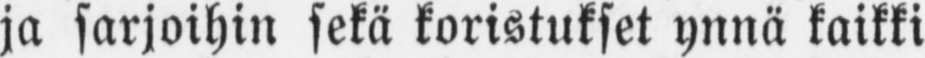ja sarjoihin sekä koristukset ynnä kaikki
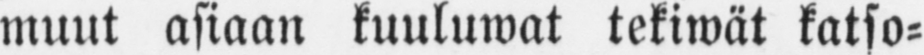muut asiaan kuuluwat tekiwät katso-
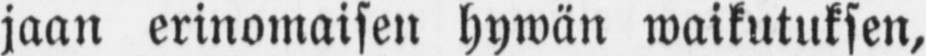jaan erinomaisen hywän waikutuksen,
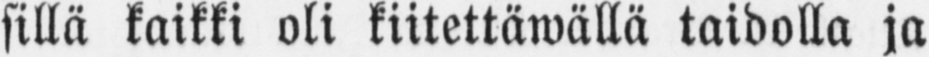sillä kaikki oli kiitettäwällä taidolla ja
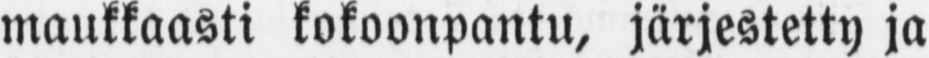maukkaasti kokoonpantu, järjestetty ja
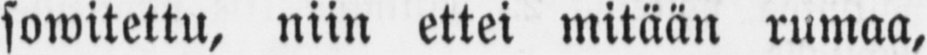sowitettu, niin ettei mitään rumaa,
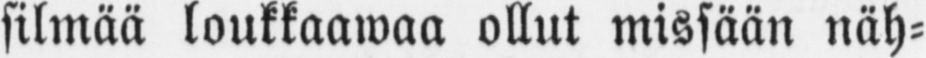silmää loukkaawaa ollut missään näh-
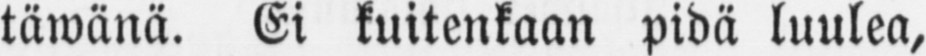täwänä. Ei kuitenkaan pidä luulea,
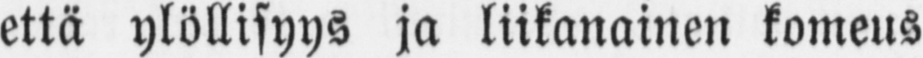että ylöllisyys ja liikanainen komeus
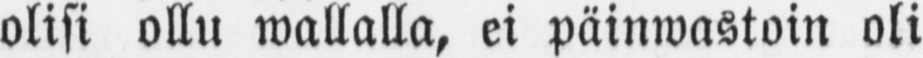olisi ollu wallalla, ei päinwastoin oli
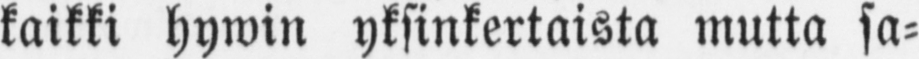kaikki hywin yksinkertaista mutta sa-
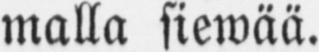malla siewää.
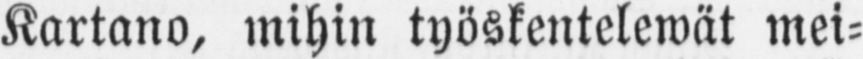Kartano, mihin työskentelewät mei-
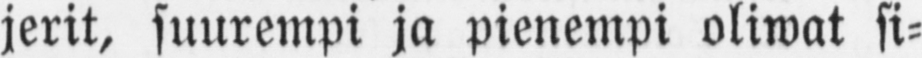jerit, suurempi ja pienempi oliwat si-
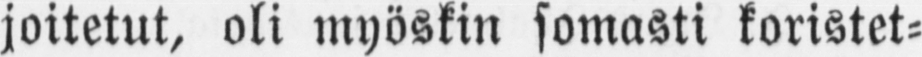joitetut, oli myöskin somasti koristet-
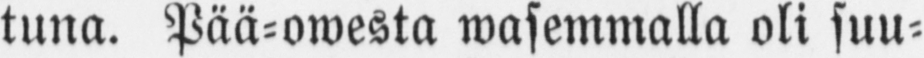tuna. Pää-owesta wasemmalla oli suu-
